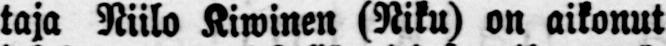taja Niilo Kiwinen (Niku) on aikonut
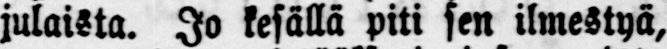julaista. Jo kesällä piti sen ilmestyä,
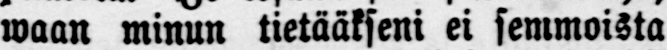waan minun tietääkseni ei semmoista
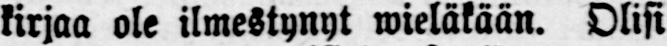kirjaa ole ilmestynyt wieläkään. Olisi
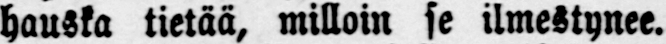hauska tietää, milloin se ilmestynee.
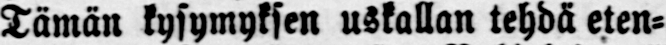Tämän kysymyksen uskallan tehdä eten-
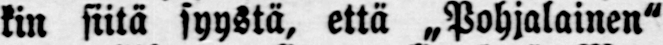kin siitä syystä, että „Pohjalainen"
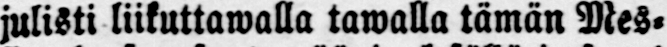julisti liikuttawalla tawalla tämän Mes-
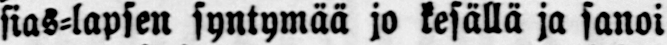sias-lapsen syntymää jo kesällä ja sanoi
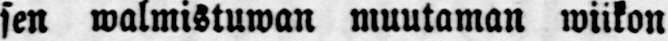sen walmistuwan muutaman wiikon
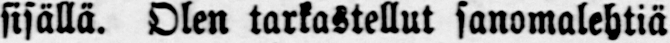sisällä. Olen tarkastellut sanomalehtiä
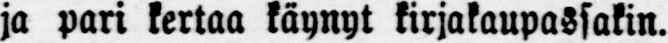ja pari kertaa käynyt kirjakaupassakin.
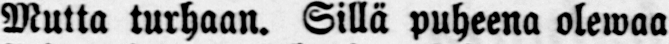Mutta turhaan. Sillä puheena olewaa
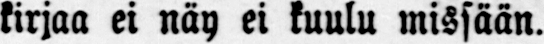kirjaa ei näy ei kuulu missään.
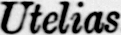Utelias.
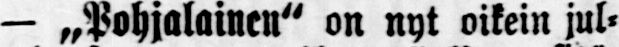— „Pohjalainen" on nyt oikein jul-
